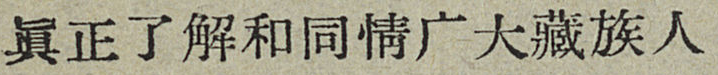眞正了解和同情广大藏族人
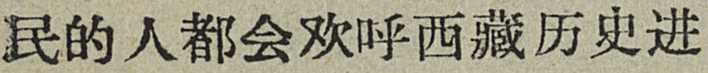民的人都会欢呼西藏历史进
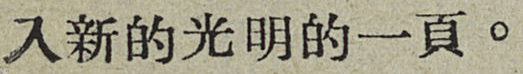入新的光明的一頁。
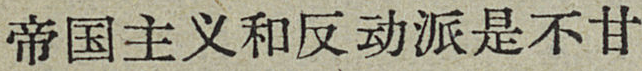帝国主义和反动派是不甘
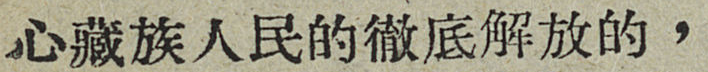心藏族人民的徹底解放的，
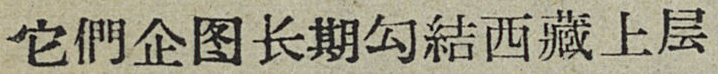它們企图长期勾結西藏上层
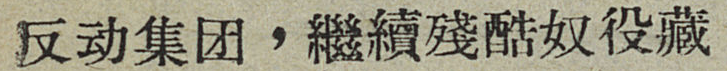反动集团，繼續殘酷奴役藏
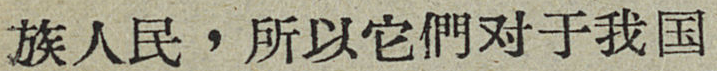族人民，所以它們对于我国
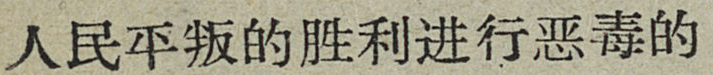人民平叛的胜利进行恶毒地
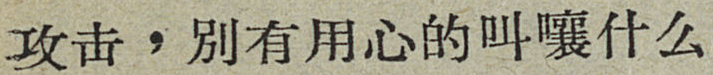攻击，别有用心的叫嚷什么
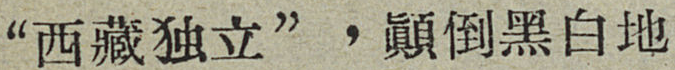“西藏独立”，顚倒黑白地
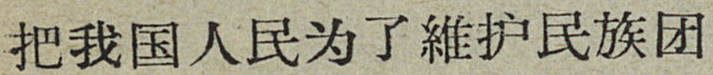把我国人民为了維护民族团
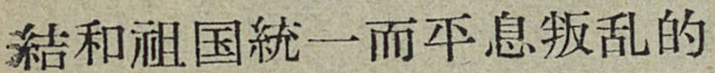結和祖国統一而平息叛乱的
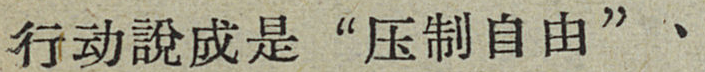行动說成是 “压制自由”、
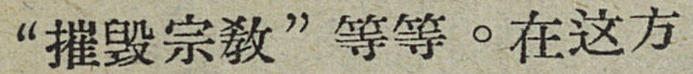“摧毁宗敎”等等。在这方
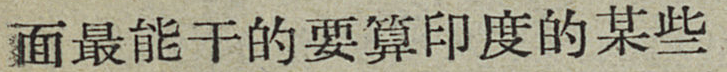面最能干的要算印度的某些
